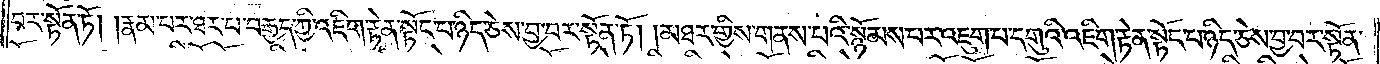བར་སྟོན་ཏོ། །རྣམ་པར་ཐར་པ་བརྒྱད་ཀྱི་འཇིག་རྟེན་སྟོང་པ་ཉིད་ཅེས་བྱ་བར་སྟོན་ཏོ། །མཐར་གྱིས་གནས་པའི་སྙོམས་པར་འཇུག་པ་དགུའི་འཇིག་རྟེན་སྟོང་པ་ཉིད་ཅེས་བྱ་བར་སྟོན་
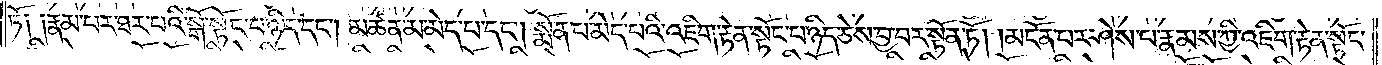ཏོ༑ ༑རྣམ་པར་ཐར་པའི་སྒོ་སྟོང་པ་ཉིད་དང༌། མཚན་མ་མེད་པ་དང༌། སྨོན་པ་མེད་པའི་འཇིག་རྟེན་སྟོང་པ་ཉིད་ཅེས་བྱ་བར་སྟོན་ཏོ། །མངོན་པར་ཤེས་པ་རྣམས་ཀྱི་འཇིག་རྟེན་སྟོང་
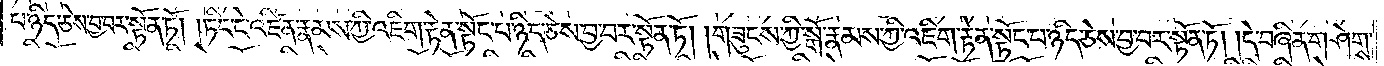པ་ཉིད་ཅེས་བྱ་བར་སྟོན་ཏོ། །ཏིང་ངེ་འཛིན་རྣམས་ཀྱི་འཇིག་རྟེན་སྟོང་པ་ཉིད་ཅེས་བྱ་བར་སྟོན་ཏོ། །གཟུངས་ཀྱི་སྒོ་རྣམས་ཀྱི་འཇིག་རྟེན་སྟོང་པ་ཉིད་ཅེས་བྱ་བར་སྟོན་ཏོ། །དེ་བཞིན་གཤེགས་
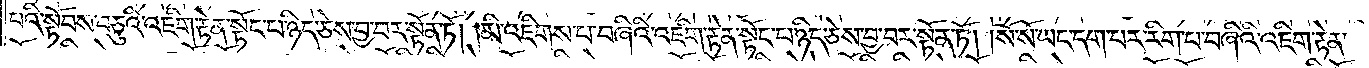པའི་སྟོབས་བཅུའི་འཇིག་རྟེན་སྟོང་པ་ཉིད་ཅེས་བྱ་བར་སྟོན་ཏོ། །མི་འཇིགས་པ་བཞིའི་འཇིག་རྟེན་སྟོང་པ་ཉིད་ཅེས་བྱ་བར་སྟོན་ཏོ། །སོ་སོ་ཡང་དག་པར་རིག་པ་བཞིའི་འཇིག་རྟེན་
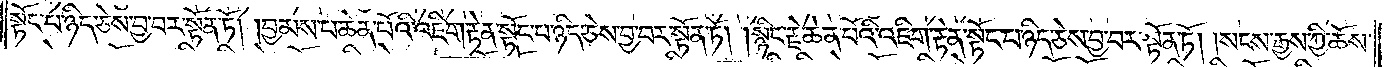སྟོང་པ་ཉིད་ཅེས་བྱ་བར་སྟོན་ཏོ། །བྱམས་པ་ཆེན་པོའི་འཇིག་རྟེན་སྟོང་པ་ཉིད་ཅེས་བྱ་བར་སྟོན་ཏོ། །སྙིང་རྗེ་ཆེན་པོའི་འཇིག་རྟེན་སྟོང་པ་ཉིད་ཅེས་བྱ་བར་སྟོན་ཏོ། །སངས་རྒྱས་ཀྱི་ཆོས་
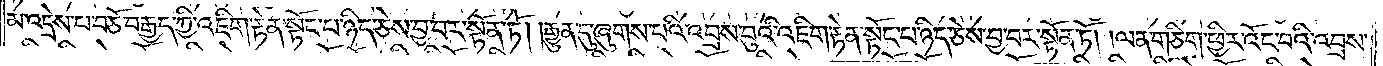མ་འདྲེས་པ་བཅོ་བརྒྱད་ཀྱི་འཇིག་རྟེན་སྟོང་པ་ཉིད་ཅེས་བྱ་བར་སྟོན་ཏོ། །རྒྱུན་དུ་ཞུགས་པའི་འབྲས་བུའི་འཇིག་རྟེན་སྟོང་པ་ཉིད་ཅེས་བྱ་བར་སྟོན་ཏོ། །ལན་གཅིག་ཕྱིར་འོང་བའི་འབྲས་
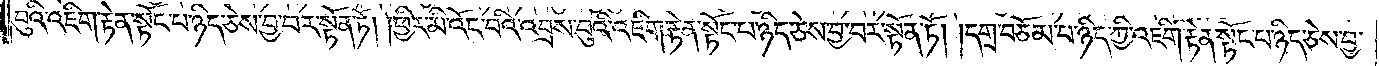བུའི་འཇིག་རྟེན་སྟོང་པ་ཉིད་ཅེས་བྱ་བར་སྟོན་ཏོ། །ཕྱིར་མི་འོང་བའི་འབྲས་བུའི་འཇིག་རྟེན་སྟོང་པ་ཉིད་ཅེས་བྱ་བར་སྟོན་ཏོ། །དགྲ་བཅོམ་པ་ཉིད་ཀྱི་འཇིག་རྟེན་སྟོང་པ་ཉིད་ཅེས་བྱ་
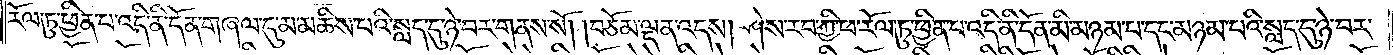རོལ་ཏུ་ཕྱིན་པ་འདི་ནི་དོན་གཞལ་དུ་མ་མཆིས་པའི་སླད་དུ་ཉེ་བར་གནས་སོ། །བཅོམ་ལྡན་འདས། ཤེས་རབ་ཀྱི་ཕ་རོལ་ཏུ་ཕྱིན་པ་འདི་ནི་དོན་མི་མཉམ་པ་དང་མཉམ་པའི་སླད་དུ་ཉེ་བར་
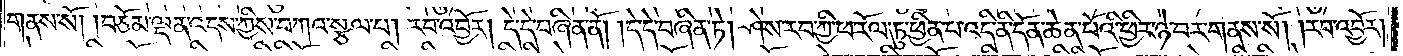གནས་སོ། །བཅོམ་ལྡན་འདས་ཀྱིས་བཀའ་སྩལ་པ། རབ་འབྱོར། དེ་དེ་བཞིན་ནོ། །དེ་དེ་བཞིན་ཏེ། ཤེས་རབ་ཀྱི་ཕ་རོལ་ཏུ་ཕྱིན་པ་འདི་ནི་དོན་ཆེན་པོའི་ཕྱིར་ཉེ་བར་གནས་སོ། །རབ་འབྱོར།
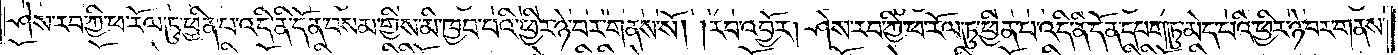ཤེས་རབ་ཀྱི་ཕ་རོལ་ཏུ་ཕྱིན་པ་འདི་ནི་དོན་བསམ་གྱིས་མི་ཁྱབ་པའི་ཕྱིར་ཉེ་བར་གནས་སོ། །རབ་འབྱོར། ཤེས་རབ་ཀྱི་ཕ་རོལ་ཏུ་ཕྱིན་པ་འདི་ནི་དོན་དཔག་ཏུ་མེད་པའི་ཕྱིར་ཉེ་བར་གནས་
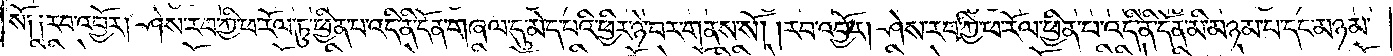སོ༑ ༑རབ་འབྱོར། ཤེས་རབ་ཀྱི་ཕ་རོལ་ཏུ་ཕྱིན་པ་འདི་ནི་དོན་གཞལ་དུ་མེད་པའི་ཕྱིར་ཉེ་བར་གནས་པའོ། །རབ་འབྱོར། ཤེས་རབ་ཀྱི་ཕ་རོལ་ཏུ་ཕྱིན་པ་འདི་ནི་དོན་མི་མཉམ་པ་དང་མཉམ་
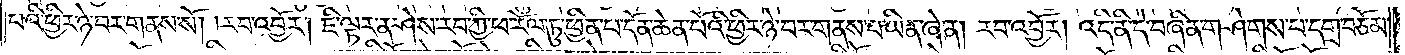པའི་ཕྱིར་ཉེ་བར་གནས་སོ། །རབ་འབྱོར། ཇི་ལྟར་ན་ཤེས་རབ་ཀྱི་ཕ་རོལ་ཏུ་ཕྱིན་པ་དོན་ཆེན་པོའི་ཕྱིར་ཉེ་བར་གནས་པ་ཡིན་ཞེ་ན། རབ་འབྱོར། འདི་ནི་དེ་བཞིན་གཤེགས་པ་དགྲ་བཅོམ་
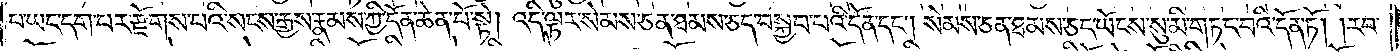པ་ཡང་དག་པར་རྫོགས་པའི་སངས་རྒྱས་རྣམས་ཀྱི་དོན་ཆེན་པོ་སྟེ། འདི་ལྟར་སེམས་ཅན་ཐམས་ཅད་བསྐྱབ་པའི་དོན་དང༌། སེམས་ཅན་ཐམས་ཅད་ཡོངས་སུ་མི་གཏང་བའི་དོན་ཏོ། །རབ་
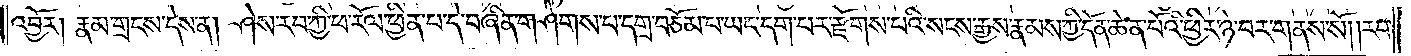འབྱོར། རྣམ་གྲངས་དེས་ན། ཤེས་རབ་ཀྱི་ཕ་རོལ་ཏུ་ཕྱིན་པ་དེ་བཞིན་གཤེགས་པ་དགྲ་བཅོམ་པ་ཡང་དག་པར་རྫོགས་པའི་སངས་རྒྱས་རྣམས་ཀྱི་དོན་ཆེན་པོའི་ཕྱིར་ཉེ་བར་གནས་སོ། །རབ་
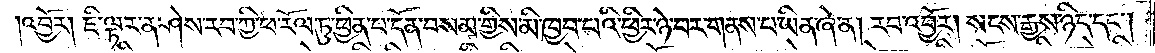འབྱོར། ཇི་ལྟར་ན་ཤེས་རབ་ཀྱི་ཕ་རོལ་ཏུ་ཕྱིན་པ་དོན་བསམ་གྱིས་མི་ཁྱབ་པའི་ཕྱིར་ཉེ་བར་གནས་པ་ཡིན་ཞེ་ན། རབ་འབྱོར། སངས་རྒྱས་ཉིད་དང༌།
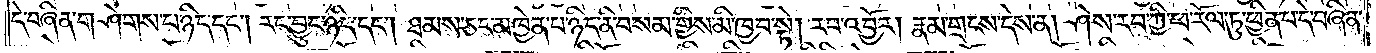དེ་བཞིན་གཤེགས་པ་ཉིད་དང༌། རང་བྱུང་ཉིད་དང༌། ཐམས་ཅད་མཁྱེན་པ་ཉིད་ནི་བསམ་གྱིས་མི་ཁྱབ་སྟེ། རབ་འབྱོར། རྣམ་གྲངས་དེས་ན། ཤེས་རབ་ཀྱི་ཕ་རོལ་ཏུ་ཕྱིན་པ་དེ་བཞིན་
